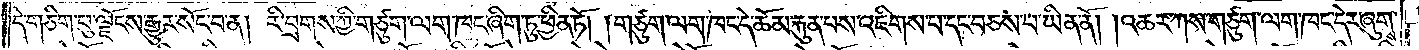དེ་གཅིག་པུ་ལྗོངས་རྒྱུར་སོང་བ་ན། རི་བྲགས་ཀྱི་གཙུག་ལག་ཁང་ཞིག་ཏུ་ཕྱིན་ཏོ། །གཙུག་ལག་ཁང་དེ་ཆོམ་རྐུན་པས་འཇིགས་པ་དང་བཅས་པ་ཡིན་ནོ། འཆར་ཀས་གཙུག་ལག་ཁང་དེར་ཞུགས་
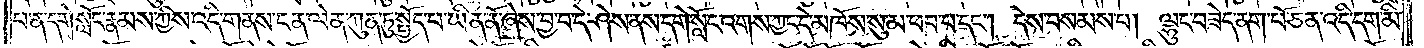པ་ན་དགེ་སློང་རྣམས་ཀྱིས་འདི་གནས་ངན་ལེན་ཀུན་ཏུ་སྤྱོད་པ་ཡིན་ནོ་ཞེས་བྱ་བ་དེ་ཤེས་ནས་དགེ་སློང་འགས་ཀྱང་དེ་མཁོས་སུ་མ་ཕབ་པ་དང༌། དེས་བསམས་པ། ལྷུང་བཟེད་ནག་པོ་ཅན་འདི་དག་མི་
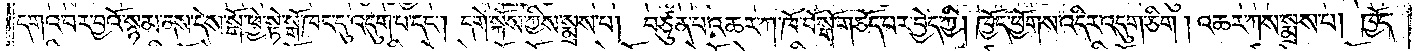དགའ་བར་བྱའོ་སྙམ་ནས་དེས་སྒོ་ཕྱེ་སྟེ་སྒོ་ཁང་དུ་འདུག་པ་དང༌། དགེ་སྐོས་ཀྱིས་སྨྲས་པ། བཙུན་པ་འཆར་ཀ་ཁོ་བོ་སྒོ་གཅོད་པར་བྱེད་ཀྱི། ཁྱོད་ཕྱོགས་འདིར་འདུག་ཅིག །འཆར་ཀས་སྨྲས་པ། ཁྱོད་
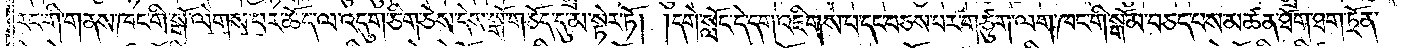རང་གི་གནས་ཁང་གི་སྒོ་ལེགས་པར་ཆོད་ལ་འདུག་ཅིག་ཅེས་དེས་སྒོ་གཅོད་དུ་མ་སྟེར་ཏོ། །དགེ་སློང་དེ་དག་འཇིགས་པ་དང་བཅས་པར་གཙུག་ལག་ཁང་གི་སྒོམ་བཅད་པས་མཚན་ཐོག་ཐག་ཏྲོན་
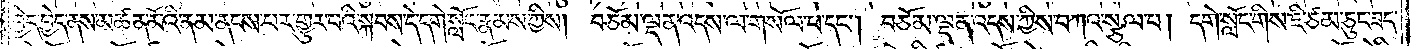བྱེད་བྱེད་ནས་མཚན་མོའི་ནམ་ནངས་པར་གྱུར་པའི་སྐབས་དེ་དགེ་སློང་རྣམས་ཀྱིས། བཅོམ་ལྡན་འདས་ལ་གསོལ་པ་དང༌། བཅོམ་ལྡན་འདས་ཀྱིས་བཀའ་སྩལ་པ། དགེ་སློང་གིས་ཇི་ཙམ་ཅུང་ཟད་
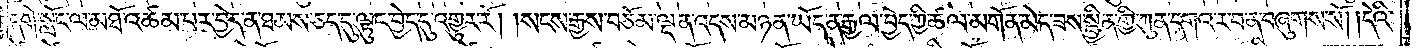དགེ་སློང་ལ་མཐོ་འཚམ་པར་བྱེད་ན་ཐམས་ཅད་དུ་ལྟུང་བྱེད་དུ་འགྱུར་རོ། །སངས་རྒྱས་བཅོམ་ལྡན་འདས་མཉན་ཡོད་ན་རྒྱལ་བྱེད་ཀྱི་ཚལ་མགོན་མེད་ཟས་སྦྱིན་གྱི་ཀུན་དགའ་ར་བ་ན་བཞུགས་སོ། །དེའི་
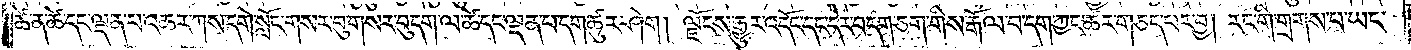ཚེ་ན་ཚེ་དང་ལྡན་པ་འཆར་ཀས་དགེ་སློང་གསར་བུ་གསར་བུ་དག་ལ་ཚེ་དང་ལྡན་པ་དག་ཚུར་ཤེག། ལྗོངས་རྒྱུར་འདོང་དང་དེར་བདག་ཅག་གིས་རྒོལ་བ་དག་ཀྱང་ཚར་གཅད་པར་བྱ། རང་གི་གྲགས་པ་ཡང་
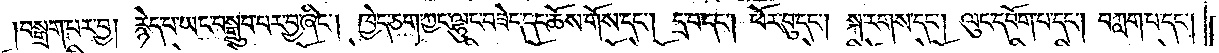བསྒྲག་པར་བྱ། རྙེད་པ་ཡང་བསྒྲུབ་པར་བྱ་ཞིང༌། ཁྱེད་ཅག་ཀྱང་ལྷུང་བཟེད་དང་ཆོས་གོས་དང༌། དྲ་བ་དང༌། ཕོར་བུ་དང༌། སྐ་རགས་དང༌། ལུང་དབོག་པ་དང༌། བཀླག་པ་དང༌།
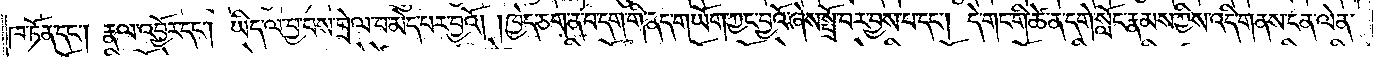ཁ་ཏོན་དང༌། རྣལ་འབྱོར་དང༌། ཡིད་ལ་བྱ་བས་བྲེལ་བ་མེད་པར་བྱའོ། །ཁྱེད་ཅག་ན་བ་དག་གི་ནད་གཡོག་ཀྱང་བྱའོ་ཞེས་སྤྲོ་བར་བྱས་པ་དང༌། དེ་གང་གི་ཚེ་ན་དགེ་སློང་རྣམས་ཀྱིས་འདི་གནས་ངན་ལེན་
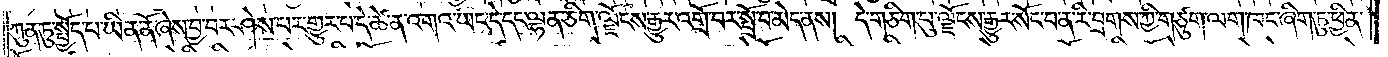ཀུན་ཏུ་སྤྱོད་པ་ཡིན་ནོ་ཞེས་བྱ་བར་ཤེས་པར་གྱུར་པ་དེ་ཚེ་ན་འགའ་ཡང་དེ་དང་ལྷན་ཅིག་ལྗོངས་རྒྱུར་འགྲོ་བར་སྤྲོ་བ་མེད་ནས། དེ་གཅིག་པུ་ལྗོངས་རྒྱུར་སོང་བ་ན་རི་བྲགས་ཀྱི་གཙུག་ལག་ཁང་ཞིག་ཏུ་ཕྱིན་
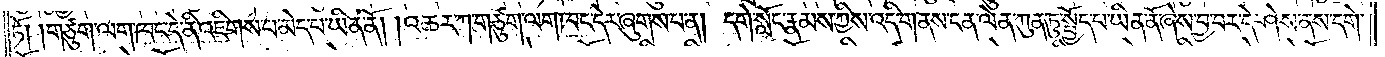ཏོ། །གཙུག་ལག་ཁང་དེ་ནི་འཇིགས་པ་མེད་པ་ཡིན་ནོ། །འཆར་ཀ་གཙུག་ལག་ཁང་དེར་ཞུགས་པ་ན། དགེ་སློང་རྣམས་ཀྱིས་འདི་གནས་ངན་ལེན་ཀུན་ཏུ་སྤྱོད་པ་ཡིན་ནོ་ཞེས་བྱ་བར་དེ་ཤེས་ནས་དགེ་
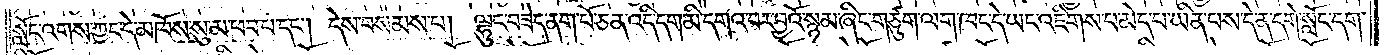སློང་འགས་ཀྱང་དེ་མཁོས་སུ་མ་ཕབ་པ་དང༌། དེས་བསམས་པ། ལྷུང་བཟེད་ནག་པོ་ཅན་འདི་དག་མི་དགའ་བར་བྱའོ་སྙམ་ཞིང་གཙུག་ལག་ཁང་དེ་ཡང་འཇིགས་པ་མེད་པ་ཡིན་པས་དེ་ན་དགེ་སློང་དག་
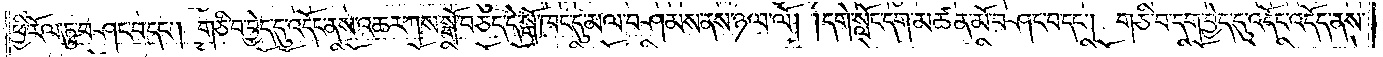ཕྱི་རོལ་ཏུ་བཤང་བ་དང༌། གཅི་བ་བྱེད་དུ་འདོང་ནས་འཆར་ཀས་སྒོ་བཅད་དེ་སྒོ་ཁང་དུ་མལ་བཤམས་ནས་ཉལ་ལོ། །དགེ་སློང་དག་མཚན་མོ་བཤང་བ་དང༌། གཅི་བ་དག་བྱེད་དུ་འདོང་འདོད་ནས་
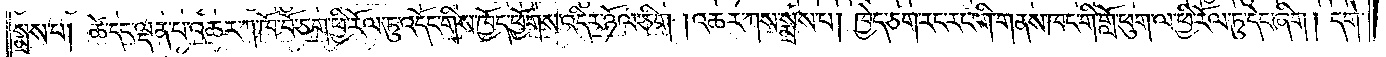སྨྲས་པ། ཚེ་དང་ལྡན་པ་འཆར་ཀ་ཁོ་བོ་ཅག་ཕྱི་རོལ་ཏུ་འདོང་གིས་ཁྱོད་ཕྱོགས་འདིར་ཉོལ་ཅིག །འཆར་ཀས་སྨྲས་པ། ཁྱེད་ཅག་རང་གི་གནས་ཁང་གི་གློ་ཕུག་ལ་ཕྱི་རོལ་ཏུ་དེང་ཞིག། དགེ་
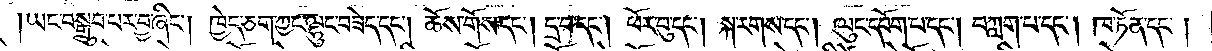ཡང་བསྒྲུབ་པར་བྱ་ཞིང༌། ཁྱེད་ཅག་ཀྱང་ལྷུང་བཟེད་དང༌། ཆོས་གོས་དང༌། དྲ་བ་དང༌། ཕོར་བུ་དང༌། སྐ་རགས་དང༌། ལུང་དབོག་པ་དང༌། བཀླག་པ་དང༌། ཁ་ཏོན་དང༌།
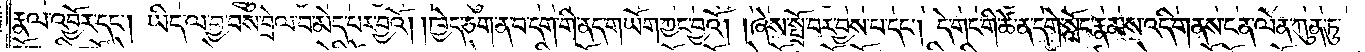རྣལ་འབྱོར་དང༌། ཡིད་ལ་བྱ་བས་བྲེལ་བ་མེད་པར་བྱའོ། །ཁྱེད་ཅག་ན་བ་དག་གི་ནད་གཡོག་ཀྱང་བྱའོ། །ཞེས་སྤྲོ་བར་བྱས་པ་དང༌། དེ་གང་གི་ཚེ་ན་དགེ་སློང་རྣམས་འདི་གནས་ངན་ལེན་ཀུན་ཏུ་
